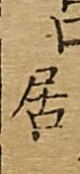居
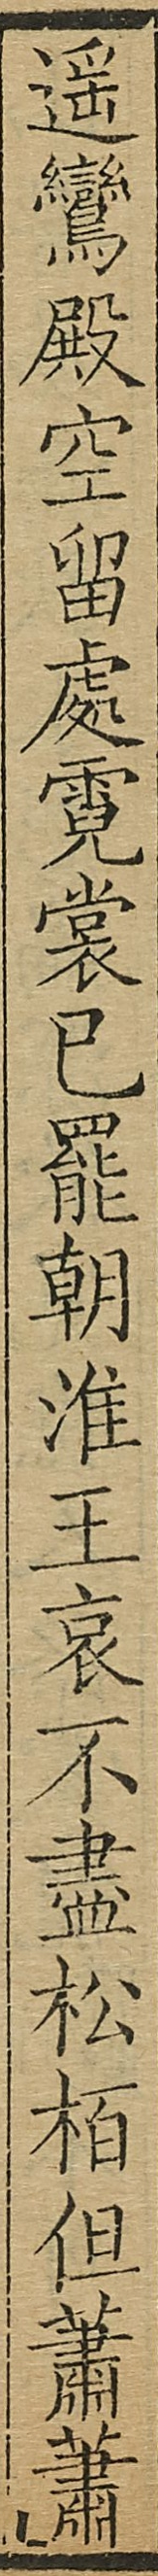遙鸞殿空留處霓裳已罷朝淮王哀不盡松柏但蕭蕭
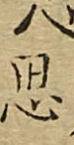思
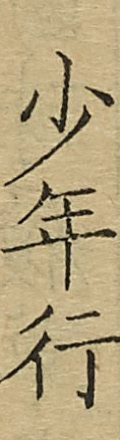少年行
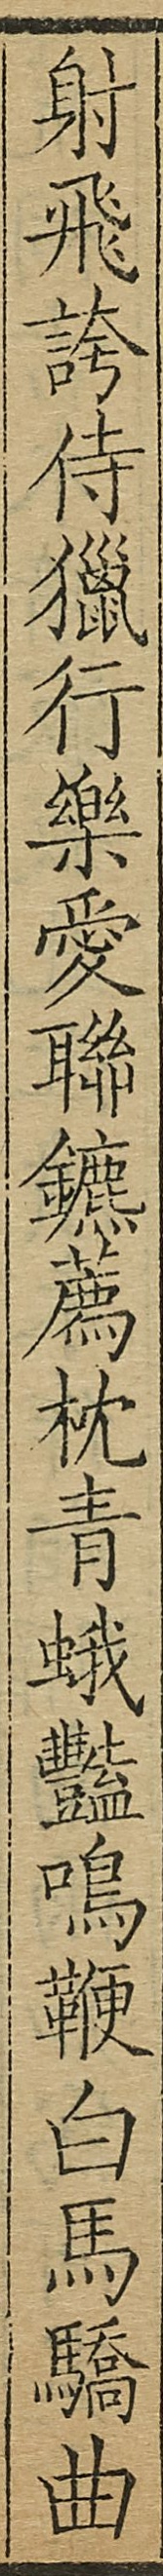射飛誇侍獵行樂愛聯鑣薦枕青蛾豔鳴鞭白馬驕曲
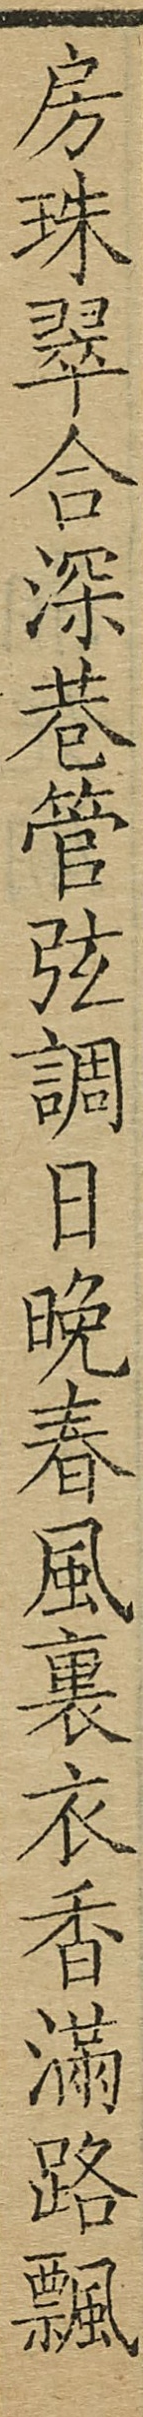房珠翠合深巷管弦調日晚春風裏衣香滿路飄
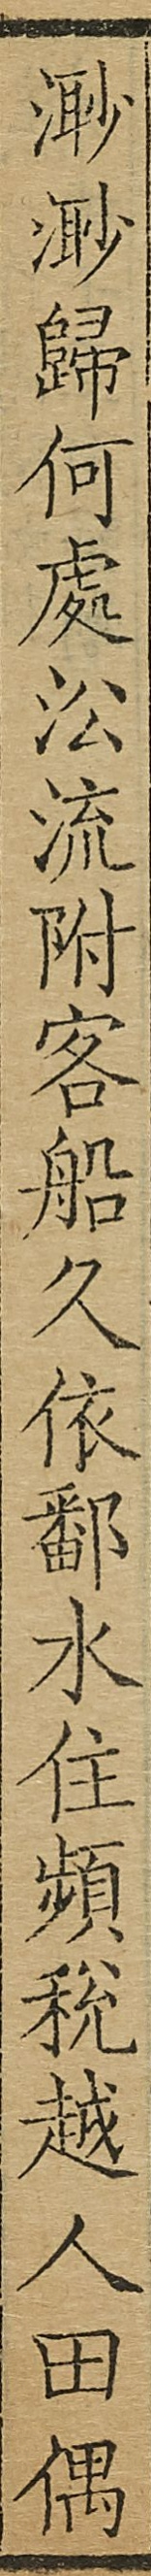渺渺歸何處沿流附客船久依鄱水住頻稅越人田偶
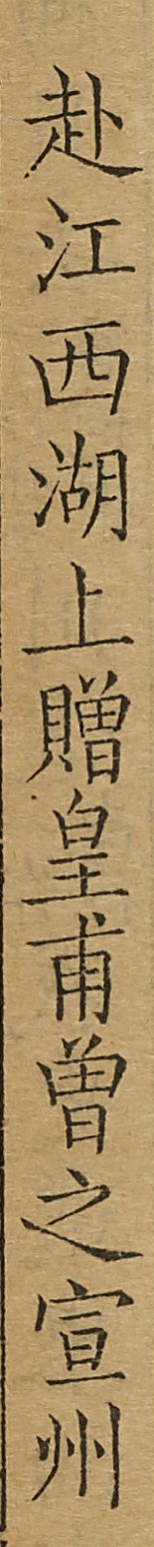赴江西湖上贈皇甫曾之宣州
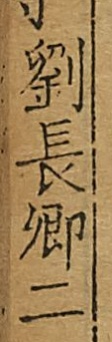劉長卿二
